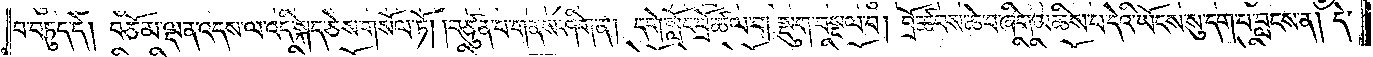བ་བཏུད་དེ། བཅོམ་ལྡན་འདས་ལ་འདི་སྐད་ཅེས་གསོལ་ཏོ། །བཙུན་པ་གནས་ཤིག་ན། དགེ་སློང་བྲོ་ཚལ་བ། སྡུག་བསྔལ་བ། བྲོ་ཚབས་ཆེ་བ་ཞིག་མཆིས་པ་དེའི་ཡོངས་སུ་དག་པ་བླངས་ན། དེ་
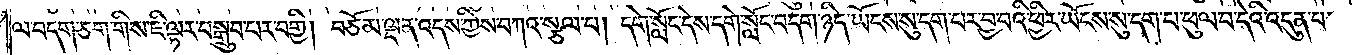ལ་བདག་ཅག་གིས་ཇི་ལྟར་བསྒྲུབ་པར་བགྱི། བཅོམ་ལྡན་འདས་ཀྱིས་བཀའ་སྩལ་པ། དགེ་སློང་དེས་དགེ་སློང་བདག་ཉིད་ཡོངས་སུ་དག་པར་བྱ་བའི་ཕྱིར་ཡོངས་སུ་དག་པ་ཕུལ་བ་དེའི་འདུན་པ་
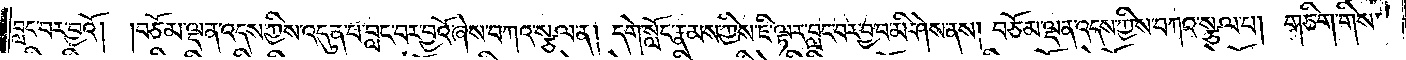བླང་བར་བྱའོ། །བཅོམ་ལྡན་འདས་ཀྱིས་འདུན་པ་བླང་བར་བྱའོ་ཞེས་བཀའ་སྩལ་ན། དགེ་སློང་རྣམས་ཀྱིས་ཇི་ལྟར་བླང་བར་བྱ་བ་མི་ཤེས་ནས། བཅོམ་ལྡན་འདས་ཀྱིས་བཀའ་སྩལ་པ། གཅིག་གིས་
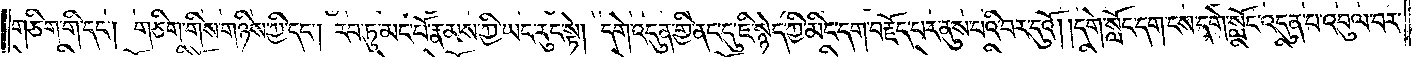གཅིག་གི་དང༌། གཅིག་གིས་གཉིས་ཀྱི་དང༌། རབ་ཏུ་མང་པོ་རྣམས་ཀྱི་ཡང་རུང་སྟེ། དགེ་འདུན་གྱི་ནང་དུ་ཇི་སྙེད་ཀྱི་མིང་དག་བརྗོད་པར་ནུས་པའི་བར་དུའོ། །དགེ་སློང་དག་ངས་དགེ་སློང་འདུན་པ་འབུལ་བར་
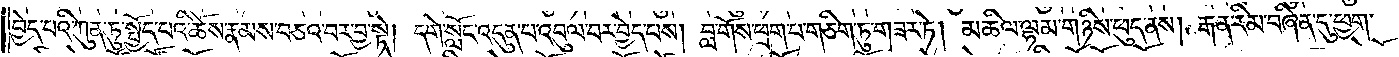བྱེད་པའི་ཀུན་ཏུ་སྤྱོད་པའི་ཆོས་རྣམས་བཅའ་བར་བྱ་སྟེ། དགེ་སློང་འདུན་པ་འབུལ་བར་བྱེད་པས། བླ་གོས་ཕྲག་པ་གཅིག་ཏུ་གཟར་ཏེ། མཆིལ་ལྷ་མ་གཉིས་ཕུད་ནས། རྒན་རིམ་བཞིན་དུ་ཕྱག་
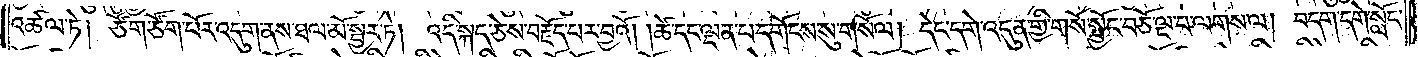འཚལ་ཏེ། ཙོག་ཙོག་པོར་འདུག་ནས་ཐལ་མོ་སྦྱར་ཏེ། འདི་སྐད་ཅེས་བརྗོད་པར་བྱའོ། །ཚེ་དང་ལྡན་པ་དགོངས་སུ་གསོལ། དེང་དགེ་འདུན་གྱི་གསོ་སྦྱོང་བཅོ་ལྔ་པ་ལགས་ལ། བདག་དགེ་སློང་
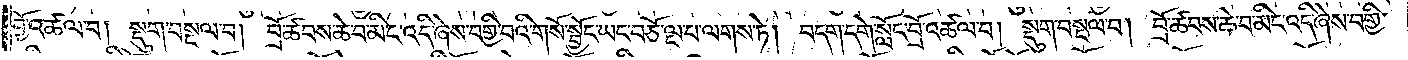བྱོ་འཚལ་བ། སྡུག་བསྔལ་བ། བྲོ་ཚབས་ཆེ་བ་མིང་འདི་ཞེས་བགྱི་བའི་གསོ་སྦྱོང་ཡང་བཅོ་ལྔ་པ་ལགས་ཏེ། བདག་དགེ་སློང་བྲོ་འཚལ་བ། སྡུག་བསྔལ་བ། བྲོ་ཚབས་ཆེ་བ་མིང་འདི་ཞེས་བགྱི་
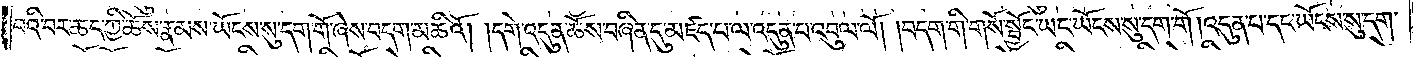བའི་བར་ཆད་ཀྱི་ཆོས་རྣམས་ཡོངས་སུ་དག་གོ་ཞེས་བདག་མཆིའོ། །དགེ་འདུན་ཆོས་བཞིན་དུ་མཛད་པ་ལ་འདུན་པ་འབུལ་ལོ། །བདག་གི་གསོ་སྦྱོང་ཡང་ཡོངས་སུ་དག་གོ །འདུན་པ་དང་ཡོངས་སུ་དག་
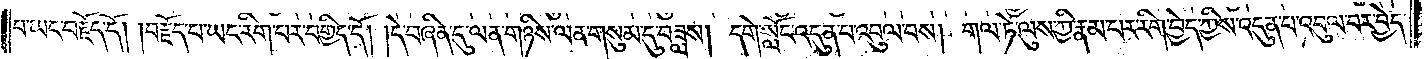པ་ཡང་བརྗོད་དོ། །བརྗོད་པ་ཡང་རིག་པར་བགྱིད་དོ། །དེ་བཞིན་དུ་ལན་གཉིས་ལན་གསུམ་དུ་བཟླས། དགེ་སློང་འདུན་བ་འབུལ་བས། གལ་ཏེ་ལུས་ཀྱི་རྣམ་པར་རིག་བྱེད་ཀྱིས་འདུན་པ་འབུལ་བར་བྱེད་
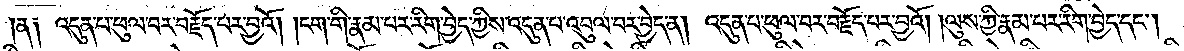ན འདུན་པ་ཕུལ་བར་བརྗོད་པར་བྱའོ། །ངག་གི་རྣམ་པར་རིག་བྱེད་ཀྱིས་འདུན་པ་འབུལ་བར་བྱེད་ན། འདུན་པ་ཕུལ་བར་བརྗོད་པར་བྱའོ། །ལུས་ཀྱི་རྣམ་པར་རིག་བྱེད་དང༌།
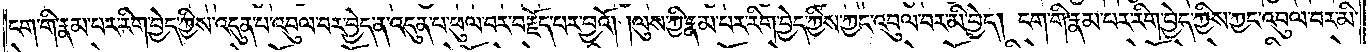ངག་གི་རྣམ་པར་རིག་བྱེད་ཀྱིས་འདུན་པ་འབུལ་བར་བྱེད་ན་འདུན་པ་ཕུལ་བར་བརྗོད་པར་བྱའོ། །ལུས་ཀྱི་རྣམ་པར་རིག་བྱེད་ཀྱིས་ཀྱང་འབུལ་བར་མི་བྱེད། ངག་གི་རྣམ་པར་རིག་བྱེད་ཀྱིས་ཀྱང་འབུལ་བར་མི་
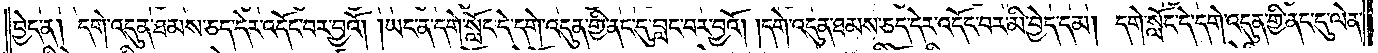བྱེད་ན། དགེ་འདུན་ཐམས་ཅད་དེར་འདོང་བར་བྱའོ། །ཡང་ན་དགེ་སློང་དེ་དགེ་འདུན་གྱི་ནང་དུ་བླང་བར་བྱའོ། །དགེ་འདུན་ཐམས་ཅད་དེར་འདོང་བར་མི་བྱེད་དམ། དགེ་སློང་དེ་དགེ་འདུན་གྱི་ནང་དུ་ལེན་
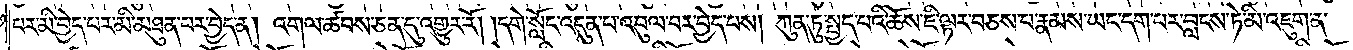པར་མི་བྱེད་པར་མི་མཐུན་པར་བྱེད་ན། འགལ་ཚབས་ཅན་དུ་འགྱུར་རོ། །དགེ་སློང་འདུན་པ་འབུལ་བར་བྱེད་པས། ཀུན་ཏུ་སྤྱད་པའི་ཆོས་ཇི་ལྟར་བཅས་པ་རྣམས་ཡང་དག་པར་བླངས་ཏེ་མི་འཇུག་ན་
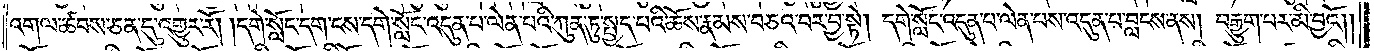འགལ་ཚབས་ཅན་དུ་འགྱུར་རོ། །དགེ་སློང་དག་ངས་དགེ་སློང་འདུན་པ་ལེན་པའི་ཀུན་ཏུ་སྤྱད་པའི་ཆོས་རྣམས་བཅའ་བར་བྱ་སྟེ། དགེ་སློང་འདུན་པ་ལེན་པས་འདུན་པ་བླངས་ནས། བརྒྱུག་པར་མི་བྱའོ༎
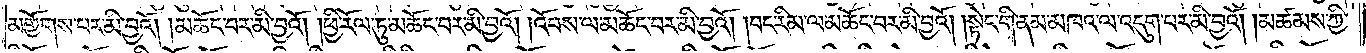མགྱོགས་པར་མི་བྱའོ། །མཆོང་བར་མི་བྱའོ། །ཕྱི་རོལ་ཏུ་མཆོང་བར་མི་བྱའོ། །འོབས་ལ་མཆོང་བར་མི་བྱའོ། །བང་རིམ་ལ་མཆོང་བར་མི་བྱའོ། །སྟེང་གི་ནམ་མཁའ་ལ་འདུག་པར་མི་བྱའོ། །མཚམས་ཀྱི་
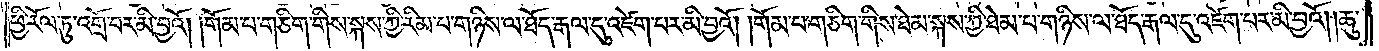ཕྱི་རོལ་ཏུ་འགྲོ་བར་མི་བྱའོ། །གོམ་པ་གཅིག་གིས་སྐས་ཀྱི་རིམ་པ་གཉིས་ལ་ཐོད་རྒལ་དུ་འཛེག་པར་མི་བྱའོ། །གོམ་པ་གཅིག་གིས་ཐེམ་སྐས་ཀྱི་ཐེམ་པ་གཉིས་ལ་ཐོད་རྒལ་དུ་འཛེག་པར་མི་བྱའོ། །ཆུ་
